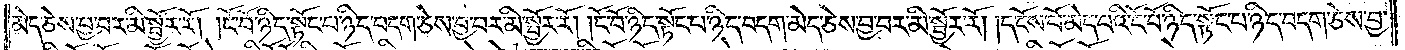མེད་ཅེས་བྱ་བར་མི་སྦྱོར་རོ། །ངོ་བོ་ཉིད་སྟོང་པ་ཉིད་བདག་ཅེས་བྱ་བར་མི་སྦྱོར་རོ། །ངོ་བོ་ཉིད་སྟོང་པ་ཉིད་བདག་མེད་ཅེས་བྱ་བར་མི་སྦྱོར་རོ། །དངོས་པོ་མེད་པའི་ངོ་བོ་ཉིད་སྟོང་པ་ཉིད་བདག་ཅེས་བྱ་
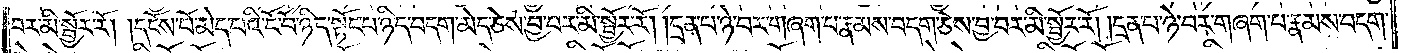བར་མི་སྦྱོར་རོ། །དངོས་པོ་མེད་པའི་ངོ་བོ་ཉིད་སྟོང་པ་ཉིད་བདག་མེད་ཅེས་བྱ་བར་མི་སྦྱོར་རོ། །དྲན་པ་ཉེ་བར་གཞག་པ་རྣམས་བདག་ཅེས་བྱ་བར་མི་སྦྱོར་རོ། །དྲན་པ་ཉེ་བར་གཞག་པ་རྣམས་བདག་
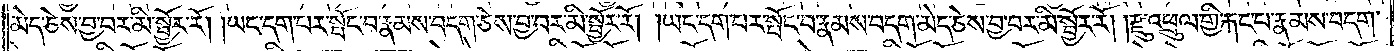མེད་ཅེས་བྱ་བར་མི་སྦྱོར་རོ། །ཡང་དག་པར་སྤོང་བ་རྣམས་བདག་ཅེས་བྱ་བར་མི་སྦྱོར་རོ། །ཡང་དག་པར་སྤོང་བ་རྣམས་བདག་མེད་ཅེས་བྱ་བར་མི་སྦྱོར་རོ། །རྫུ་འཕྲུལ་གྱི་རྐང་པ་རྣམས་བདག་
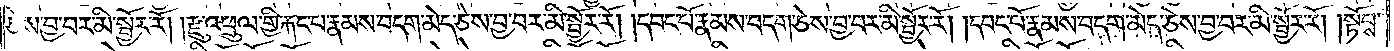ཅེས་བྱ་བར་མི་སྦྱོར་རོ། །རྫུ་འཕྲུལ་གྱི་རྐང་པ་རྣམས་བདག་མེད་ཅེས་བྱ་བར་མི་སྦྱོར་རོ། །དབང་པོ་རྣམས་བདག་ཅེས་བྱ་བར་མི་སྦྱོར་རོ། །དབང་པོ་རྣམས་བདག་མེད་ཅེས་བྱ་བར་མི་སྦྱོར་རོ། །སྟོབས་
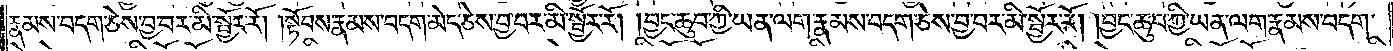རྣམས་བདག་ཅེས་བྱ་བར་མི་སྦྱོར་རོ། །སྟོབས་རྣམས་བདག་མེད་ཅེས་བྱ་བར་མི་སྦྱོར་རོ། །བྱང་ཆུབ་ཀྱི་ཡན་ལག་རྣམས་བདག་ཅེས་བྱ་བར་མི་སྦྱོར་རོ། །བྱང་ཆུབ་ཀྱི་ཡན་ལག་རྣམས་བདག་
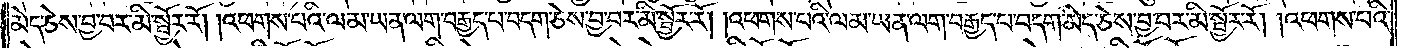མེད་ཅེས་བྱ་བར་མི་སྦྱོར་རོ། །འཕགས་པའི་ལམ་ཡན་ལག་བརྒྱད་པ་བདག་ཅེས་བྱ་བར་མི་སྦྱོར་རོ། །འཕགས་པའི་ལམ་ཡན་ལག་བརྒྱད་པ་བདག་མེད་ཅེས་བྱ་བར་མི་སྦྱོར་རོ། །འཕགས་པའི་
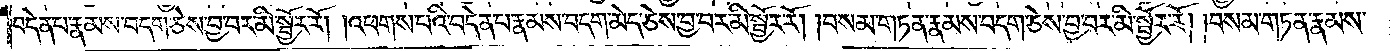བདེན་པ་རྣམས་བདག་ཅེས་བྱ་བར་མི་སྦྱོར་རོ། །འཕགས་པའི་བདེན་པ་རྣམས་བདག་མེད་ཅེས་བྱ་བར་མི་སྦྱོར་རོ། །བསམ་གཏན་རྣམས་བདག་ཅེས་བྱ་བར་མི་སྦྱོར་རོ། །བསམ་གཏན་རྣམས་
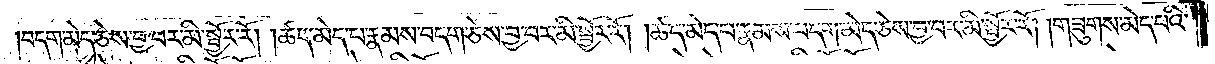བདག་མེད་ཅེས་བྱ་བར་མི་སྦྱོར་རོ། །ཚད་མེད་པ་རྣམས་བདག་ཅེས་བྱ་བར་མི་སྦྱོར་རོ། །ཚད་མེད་པ་རྣམས་བདག་མེད་ཅེས་བྱ་བར་མི་སྦྱོར་རོ། །གཟུགས་མེད་པའི་
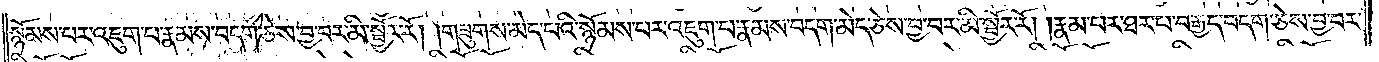སྙོམས་པར་འཇུག་པ་རྣམས་བདག་ཅེས་བྱ་བར་མི་སྦྱོར་རོ། །གཟུགས་མེད་པའི་སྙོམས་པར་འཇུག་པ་རྣམས་བདག་མེད་ཅེས་བྱ་བར་མི་སྦྱོར་རོ། །རྣམ་པར་ཐར་པ་བརྒྱད་བདག་ཅེས་བྱ་བར་
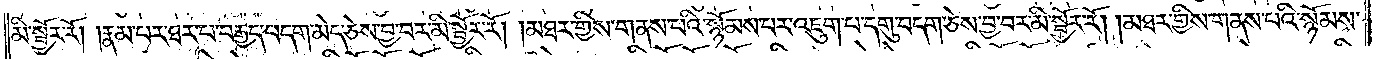མི་སྦྱོར་རོ། །རྣམ་པར་ཐར་པ་བརྒྱད་བདག་མེད་ཅེས་བྱ་བར་མི་སྦྱོར་རོ། །མཐར་གྱིས་གནས་པའི་སྙོམས་པར་འཇུག་པ་དགུ་བདག་ཅེས་བྱ་བར་མི་སྦྱོར་རོ། །མཐར་གྱིས་གནས་པའི་སྙོམས་
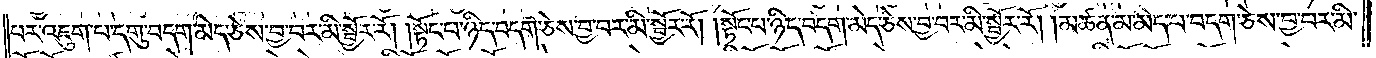པར་འཇུག་པ་དགུ་བདག་མེད་ཅེས་བྱ་བར་མི་སྦྱོར་རོ། །སྟོང་པ་ཉིད་བདག་ཅེས་བྱ་བར་མི་སྦྱོར་རོ། །སྟོང་པ་ཉིད་བདག་མེད་ཅེས་བྱ་བར་མི་སྦྱོར་རོ། །མཚན་མ་མེད་པ་བདག་ཅེས་བྱ་བར་མི་
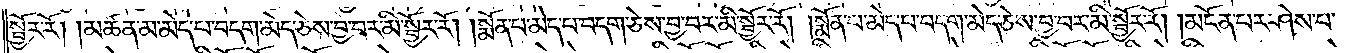སྦྱོར་རོ། །མཚན་མ་མེད་པ་བདག་མེད་ཅེས་བྱ་བར་མི་སྦྱོར་རོ། །སྨོན་པ་མེད་པ་བདག་ཅེས་བྱ་བར་མི་སྦྱོར་རོ། །སྨོན་པ་མེད་པ་བདག་མེད་ཅེས་བྱ་བར་མི་སྦྱོར་རོ། །མངོན་པར་ཤེས་པ་
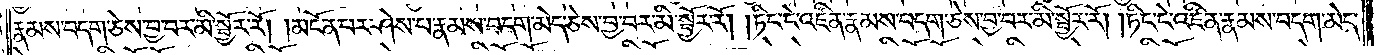རྣམས་བདག་ཅེས་བྱ་བར་མི་སྦྱོར་རོ། །མངོན་པར་ཤེས་པ་རྣམས་བདག་མེད་ཅེས་བྱ་བར་མི་སྦྱོར་རོ། །ཏིང་ངེ་འཛིན་རྣམས་བདག་ཅེས་བྱ་བར་མི་སྦྱོར་རོ། །ཏིང་ངེ་འཛིན་རྣམས་བདག་མེད་
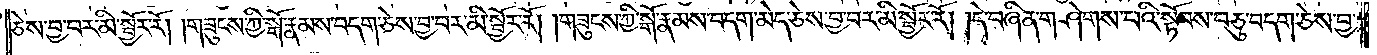ཅེས་བྱ་བར་མི་སྦྱོར་རོ། །གཟུངས་ཀྱི་སྒོ་རྣམས་བདག་ཅེས་བྱ་བར་མི་སྦྱོར་རོ། །གཟུངས་ཀྱི་སྒོ་རྣམས་བདག་མེད་ཅེས་བྱ་བར་མི་སྦྱོར་རོ། །དེ་བཞིན་གཤེགས་པའི་སྟོབས་བཅུ་བདག་ཅེས་བྱ་
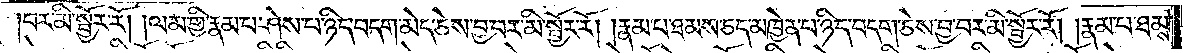བར་མི་སྦྱོར་རོ། །ལམ་གྱི་རྣམ་པ་ཤེས་པ་ཉིད་བདག་མེད་ཅེས་བྱ་བར་མི་སྦྱོར་རོ། །རྣམ་པ་ཐམས་ཅད་མཁྱེན་པ་ཉིད་བདག་ཅེས་བྱ་བར་མི་སྦྱོར་རོ། །རྣམ་པ་ཐམས་
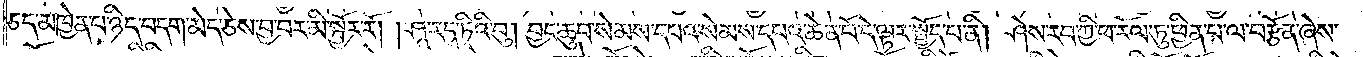ཅད་མཁྱེན་པ་ཉིད་བདག་མེད་ཅེས་བྱ་བར་མི་སྦྱོར་རོ། །ཤཱ་ར་དྭ་ཏིའི་བུ། བྱང་ཆུབ་སེམས་དཔའ་སེམས་དཔའ་ཆེན་པོ་དེ་ལྟར་སྤྱོད་པ་ནི། ཤེས་རབ་ཀྱི་ཕ་རོལ་ཏུ་ཕྱིན་པ་ལ་བརྩོན་ཞེས་
